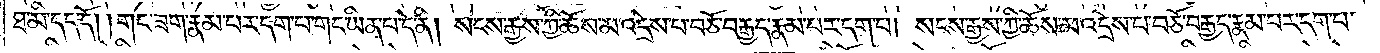ཐ་མི་དད་དོ། །གང་ཟག་རྣམ་པར་དག་པ་གང་ཡིན་པ་དེ་ནི། སངས་རྒྱས་ཀྱི་ཆོས་མ་འདྲེས་པ་བཅོ་བརྒྱད་རྣམ་པར་དག་པ། སངས་རྒྱས་ཀྱི་ཆོས་མ་འདྲེས་པ་བཅོ་བརྒྱད་རྣམ་པར་དག་པ་
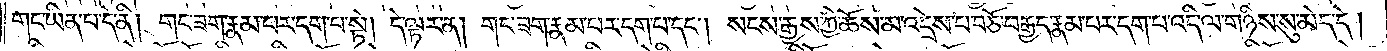གང་ཡིན་པ་དེ་ནི། གང་ཟག་རྣམ་པར་དག་པ་སྟེ། དེ་ལྟར་ན། གང་ཟག་རྣམ་པར་དག་པ་དང༌། སངས་རྒྱས་ཀྱི་ཆོས་མ་འདྲེས་པ་བཅོ་བརྒྱད་རྣམ་པར་དག་པ་འདི་ལ་གཉིས་སུ་མེད་དེ།
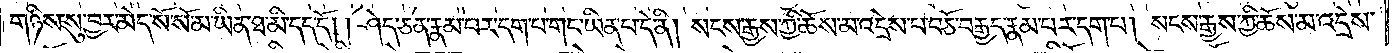གཉིས་སུ་བྱར་མེད་སོ་སོ་མ་ཡིན་ཐ་མི་དད་དོ། །ཤེད་ཅན་རྣམ་པར་དག་པ་གང་ཡིན་པ་དེ་ནི། སངས་རྒྱས་ཀྱི་ཆོས་མ་འདྲེས་པ་བཅོ་བརྒྱད་རྣམ་པར་དག་པ། སངས་རྒྱས་ཀྱི་ཆོས་མ་འདྲེས་
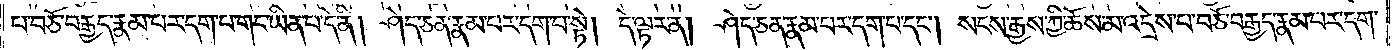པ་བཅོ་བརྒྱད་རྣམ་པར་དག་པ་གང་ཡིན་པ་དེ་ནི། ཤེད་ཅན་རྣམ་པར་དག་པ་སྟེ། དེ་ལྟར་ན། ཤེད་ཅན་རྣམ་པར་དག་པ་དང༌། སངས་རྒྱས་ཀྱི་ཆོས་མ་འདྲེས་པ་བཅོ་བརྒྱད་རྣམ་པར་དག་
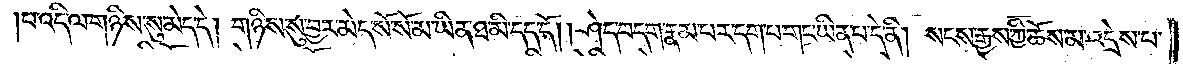པ་འདི་ལ་གཉིས་སུ་མེད་དེ། གཉིས་སུ་བྱར་མེད་སོ་སོ་མ་ཡིན་ཐ་མི་དད་དོ། །ཤེད་བདག་རྣམ་པར་དག་པ་གང་ཡིན་པ་དེ་ནི། སངས་རྒྱས་ཀྱི་ཆོས་མ་འདྲེས་པ་
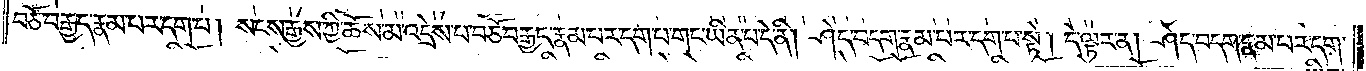བཅོ་བརྒྱད་རྣམ་པར་དག་པ། སངས་རྒྱས་ཀྱི་ཆོས་མ་འདྲེས་པ་བཅོ་བརྒྱད་རྣམ་པར་དག་པ་གང་ཡིན་པ་དེ་ནི། ཤེད་བདག་རྣམ་པར་དག་པ་སྟེ། དེ་ལྟར་ན། ཤེད་བདག་རྣམ་པར་དག་
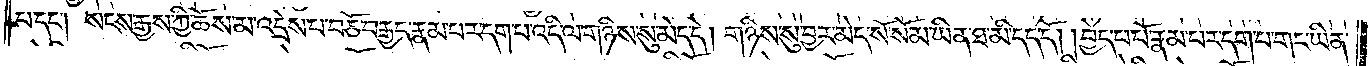པ་དང༌། སངས་རྒྱས་ཀྱི་ཆོས་མ་འདྲེས་པ་བཅོ་བརྒྱད་རྣམ་པར་དག་པ་འདི་ལ་གཉིས་སུ་མེད་དེ། གཉིས་སུ་བྱར་མེད་སོ་སོ་མ་ཡིན་ཐ་མི་དད་དོ། །བྱེད་པ་པོ་རྣམ་པར་དག་པ་གང་ཡིན་
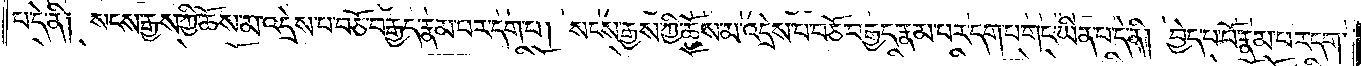པ་དེ་ནི། སངས་རྒྱས་ཀྱི་ཆོས་མ་འདྲེས་པ་བཅོ་བརྒྱད་རྣམ་པར་དག་པ། སངས་རྒྱས་ཀྱི་ཆོས་མ་འདྲེས་པ་བཅོ་བརྒྱད་རྣམ་པར་དག་པ་གང་ཡིན་པ་དེ་ནི། བྱེད་པ་པོ་རྣམ་པར་དག་
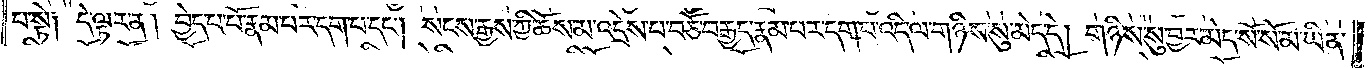པ་སྟེ། དེ་ལྟར་ན། བྱེད་པ་པོ་རྣམ་པར་དག་པ་དང༌། སངས་རྒྱས་ཀྱི་ཆོས་མ་འདྲེས་པ་བཅོ་བརྒྱད་རྣམ་པར་དག་པ་འདི་ལ་གཉིས་སུ་མེད་དེ། གཉིས་སུ་བྱར་མེད་སོ་སོ་མ་ཡིན་
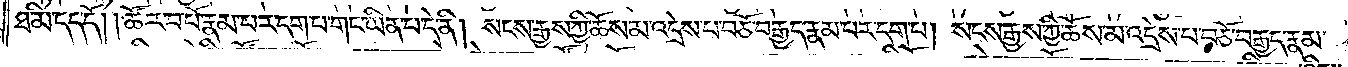ཐ་མི་དད་དོ། །ཚོར་བ་པོ་རྣམ་པར་དག་པ་གང་ཡིན་པ་དེ་ནི། སངས་རྒྱས་ཀྱི་ཆོས་མ་འདྲེས་པ་བཅོ་བརྒྱད་རྣམ་པར་དག་པ། སངས་རྒྱས་ཀྱི་ཆོས་མ་འདྲེས་པ་བཅོ་བརྒྱད་རྣམ་
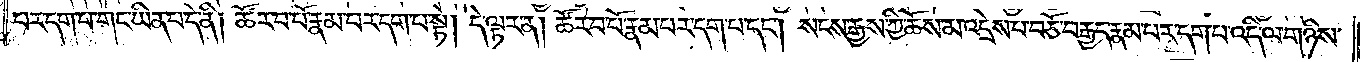པར་དག་པ་གང་ཡིན་པ་དེ་ནི། ཚོར་བ་པོ་རྣམ་པར་དག་པ་སྟེ། དེ་ལྟར་ན། ཚོར་བ་པོ་རྣམ་པར་དག་པ་དང༌། སངས་རྒྱས་ཀྱི་ཆོས་མ་འདྲེས་པ་བཅོ་བརྒྱད་རྣམ་པར་དག་པ་འདི་ལ་གཉིས་
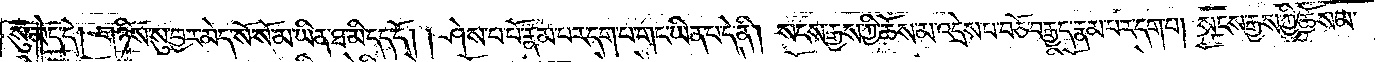སུ་མེད་དེ། གཉིས་སུ་བྱར་མེད་སོ་སོ་མ་ཡིན་ཐ་མི་དད་དོ། །ཤེས་པ་པོ་རྣམ་པར་དག་པ་གང་ཡིན་པ་དེ་ནི། སངས་རྒྱས་ཀྱི་ཆོས་མ་འདྲེས་པ་བཅོ་བརྒྱད་རྣམ་པར་དག་པ། སངས་རྒྱས་ཀྱི་ཆོས་མ་
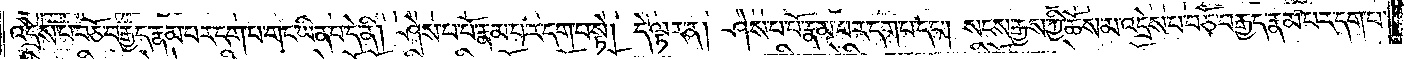འདྲེས་པ་བཅོ་བརྒྱད་རྣམ་པར་དག་པ་གང་ཡིན་པ་དེ་ནི། ཤེས་པ་པོ་རྣམ་པར་དག་པ་སྟེ། དེ་ལྟར་ན། ཤེས་པ་པོ་རྣམ་པར་དག་པ་དང༌། སངས་རྒྱས་ཀྱི་ཆོས་མ་འདྲེས་པ་བཅོ་བརྒྱད་རྣམ་པར་དག་པ་
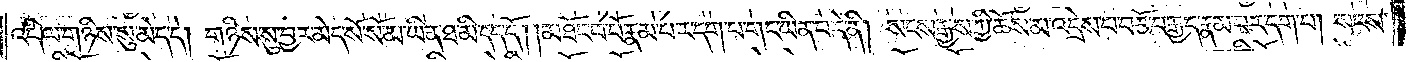འདི་ལ་གཉིས་སུ་མེད་དེ། གཉིས་སུ་བྱར་མེད་སོ་སོ་མ་ཡིན་ཐ་མི་དད་དོ། །མཐོང་བ་པོ་རྣམ་པར་དག་པ་གང་ཡིན་པ་དེ་ནི། སངས་རྒྱས་ཀྱི་ཆོས་མ་འདྲེས་པ་བཅོ་བརྒྱད་རྣམ་པར་དག་པ། སངས་
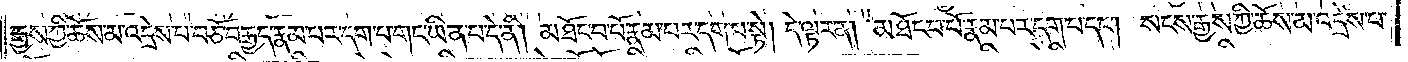རྒྱས་ཀྱི་ཆོས་མ་འདྲེས་པ་བཅོ་བརྒྱད་རྣམ་པར་དག་པ་གང་ཡིན་པ་དེ་ནི། མཐོང་བ་པོ་རྣམ་པར་དག་པ་སྟེ། དེ་ལྟར་ན། མཐོང་བ་པོ་རྣམ་པར་དག་པ་དང༌། སངས་རྒྱས་ཀྱི་ཆོས་མ་འདྲེས་པ་
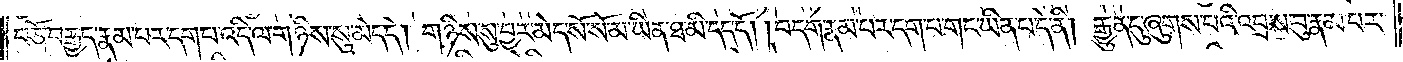བཅོ་བརྒྱད་རྣམ་པར་དག་པ་འདི་ལ་གཉིས་སུ་མེད་དེ། གཉིས་སུ་བྱར་མེད་སོ་སོ་མ་ཡིན་ཐ་མི་དད་དོ། །བདག་རྣམ་པར་དག་པ་གང་ཡིན་པ་དེ་ནི། རྒྱུན་དུ་ཞུགས་པའི་འབྲས་བུ་རྣམ་པར་
